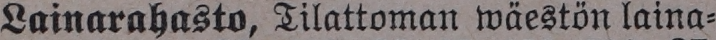Lainarahasto, Tilattoman wäestön laina-
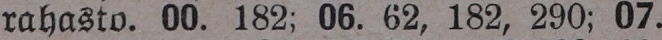rahasto. 00. 182; 06. 62, 182, 290; 07.
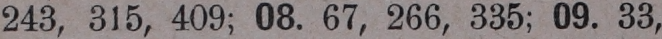243, 315, 409; 08. 67, 266, 335; 09. 33,
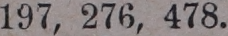197, 276, 478.
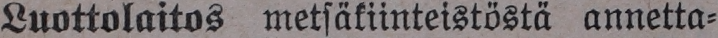Luottolaitos metsäkiinteistöstä annetta-
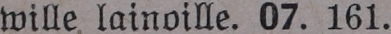wille lainoille. 07. 161.
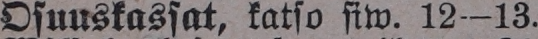Osuuskassat, katso siw. 12—13.
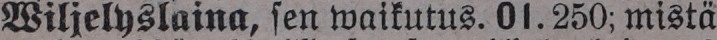Wiljelyslaina, sen waikutus. 01 .250; mistä
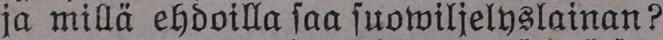ja millä ehdoilla saa suowiljelyslainan?
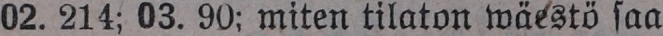02. 214; 03. 90; miten tilaton wäestö saa
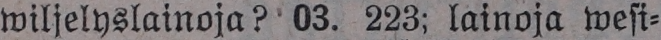wiljelyslainoja? 03. 223; lainoja wesi-
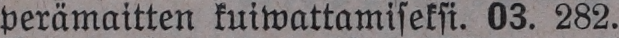perämaitten kuiwattamiseksi. 03. 282.
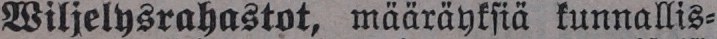Wiljelysrahastot, määräyksiä kunnallis-
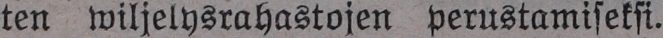ten wiljelysrahastojen perustamiseksi.
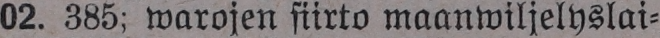02. 385; warojen siirto maanwiljelyslai-
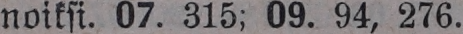noiksi. 07. 315; 09. 94, 276.
